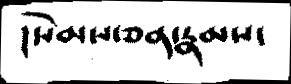།སེམས་ཅན་རྣམས་
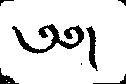༄༅།
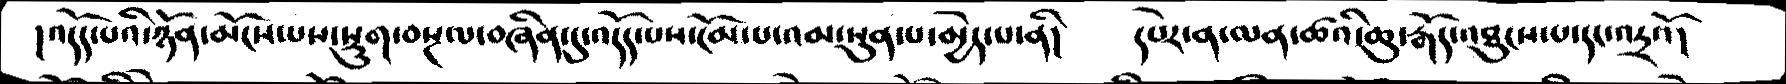།འདོད་པའི་ཉོན་མོངས་པས་སྡུག་བསྔལ་བཞིན་དུ་འདོད་པས་ངོམ་པ་འམ་སུན་པ་མྱེད་པ་ནི།  དཔེར་ན་ལན་ཚའི་ཆུ་རྒོད་འཐུངས་པ་དང་འདྲའོ་།
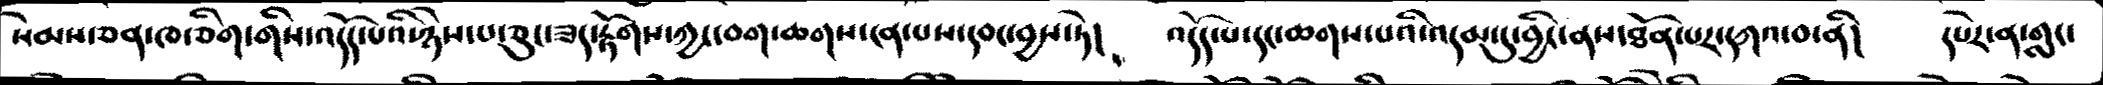སེམས་ཅན་ཁ་ཅིག་གིས་འདོད་པའི་ཉེས་པ་ཅུང་ཟད་རྟོགས་ཀྱང་བག་ཆགས་ངན་པས་དབང་བྱས་ཏེ།   འདོད་པ་དང་ཆགས་པའི་འདམ་དུ་བྱིང་ནས་ཐོན་པར་དཀའ་བ་ནི།   དཔེར་ན་གླང་
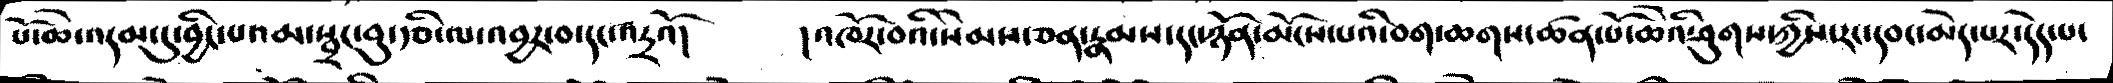པོ་ཆེ་འདམ་དུ་བྱིང་པའམ་སྦྲང་བུ་རྩི་ལ་འབྱར་བ་དང་འདྲའོ།   །འཁོར་བའི་སེམས་ཅན་རྣམས་དང་ཉོན་མོངས་པའི་བག་ཆགས་ཚན་པོ་ཆེའི་ཤུགས་ཀྱིས་རང་དབང་མེད་པར་དེད་པ་
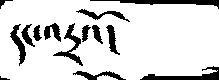དང་འདྲའོ།
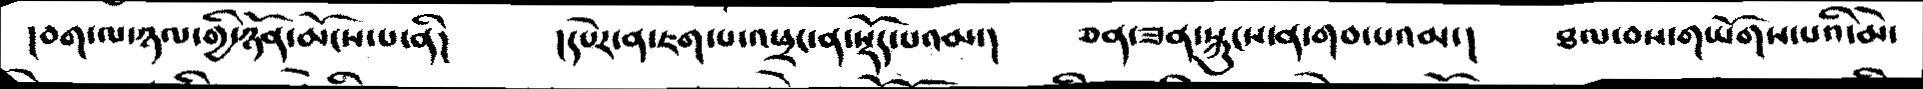།བག་ལ་ཉལ་གྱི་ཉོན་མོངས་པ་ནི།   །དཔེར་ན་ཇག་པ་འཕྲང་ན་སྡོད་པའམ་།   ཅན་ཟན་སྐུངས་ན་གབ་པའམ་།   ཐལ་བས་གཡོགས་པའི་མེ་
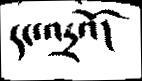དང་འདྲའོ།
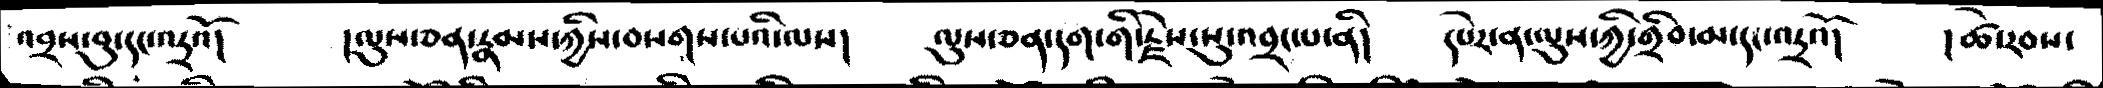འབྲས་བུ་དང་འདྲའོ།   །ལུས་ཅན་རྣམས་ཀྱིས་བསགས་པའི་ལས།   ལུས་ཅན་དག་གི་རྗེས་སུ་འབྲང་པ་ནི།   དཔེར་ན་ལུས་ཀྱི་གྲིབ་མ་དང་འདྲའོ།   །ཚེ་རབས་
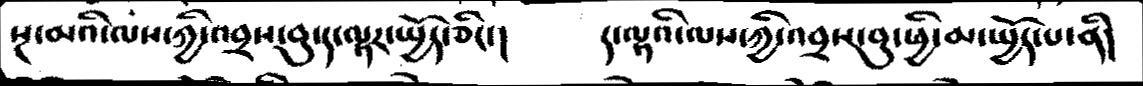སྔ་མའི་ལས་ཀྱི་འབྲས་བུ་ད་ལྟར་སྤྱོད་ཅིང་།      ད་ལྟའི་ལས་ཀྱི་འབྲས་བུ་ཕྱི་མ་སྤྱོད་པ་ནི།
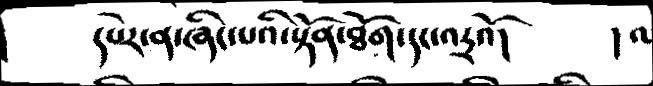དཔེར་ན་ཞིང་པའི་སྟོན་ཐོག་དང་འདྲའོ།          །ལ
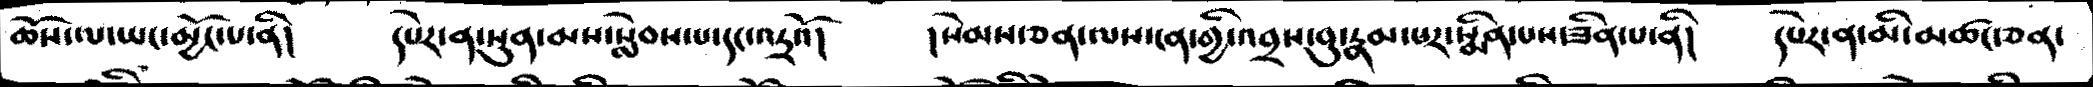ཆོས་ལ་ཡང་མྱོང་པ་ནི།    དཔེར་ན་སུན་མས་སླེབས་པ་དང་འདྲའོ།   །སེམས་ཅན་ལས་ངན་གྱི་འབྲས་བུ་རྣམ་པར་སྨིན་པས་ཟིན་པ་ནི།   དཔེར་ན་མི་མཚང་ཅན་
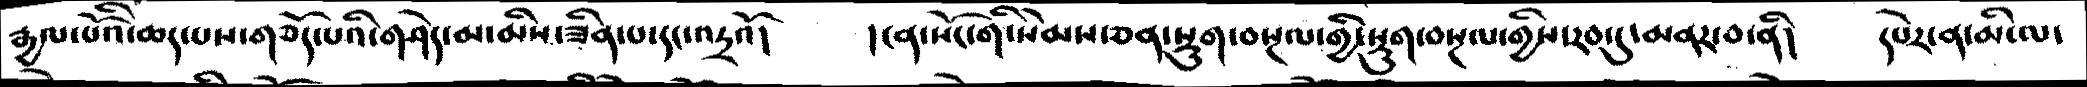རྒྱལ་པོའི་ཆད་པས་གཅོད་པའི་གཤེད་མ་མིས་ཟིན་པ་དང་འདྲའོ།   །ངན་སོང་གི་སེམས་ཅན་སྡུག་བསྔལ་གྱི་སྡུག་བསྔལ་གྱིས་རབ་དུ་མནར་བ་ནི།  དཔེར་ན་མི་ལ་
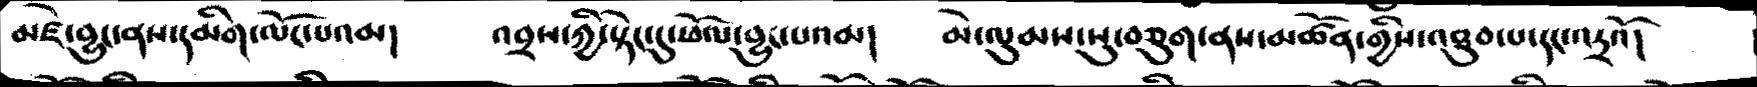མཛེ་བྱུང་ནས་དམིག་ལོང་པའམ།   འབྲས་ཀྱི་སྟེང་དུ་ཕོལ་བྱུང་པའམ།   མེ་ལུམས་སུ་བཅུག་ནས་མཚོན་གྱིས་འཐུབ་པ་དང་འདྲའོ།
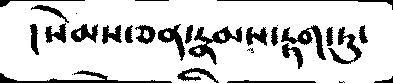།སེམས་ཅན་རྣམས་རྟག་ཏུ་
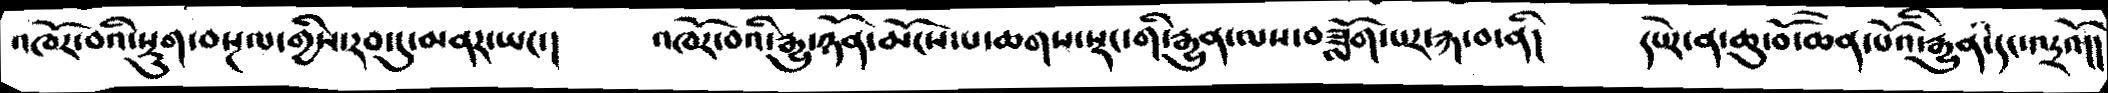འཁོར་བའི་སྡུག་བསྔལ་གྱིས་རབ་དུ་མནར་ཡང་།   འཁོར་བའི་རྒྱུ་ཉོན་མོངས་པ་ཆགས་སྡང་གི་རྒྱུན་ལས་བཟློག་པར་རྐ་བ་ནི།  དཔེར་ན་ཆུ་བོ་ཆེན་པོའི་རྒྱུན་དང་འདྲའོ།།
